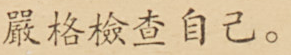嚴格檢查自己。
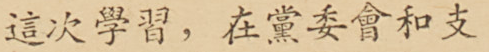這次學習，在黨委會和支
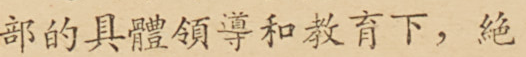部的具體領導和教育下，絕
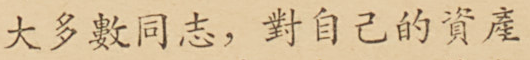大多數同志，對自己的資產
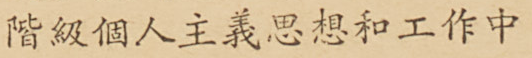階級個人主義思想和工作中
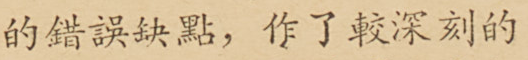的錯誤缺點，作了較深刻的
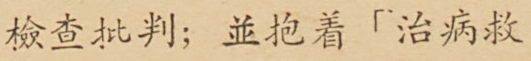檢查批判；並抱着「治病救
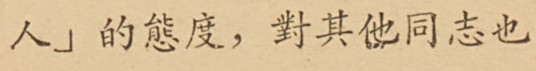人」的態度，對其他同志也
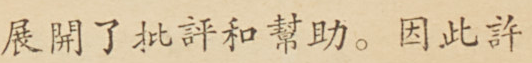展開了批評和幫助。因此許
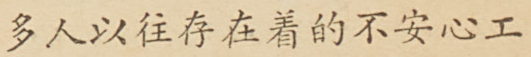多人以往存在着的不安心工
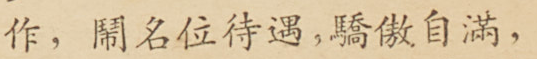作，鬧名位待遇，驕傲自滿，
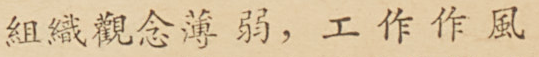組織觀念薄弱，工作作風
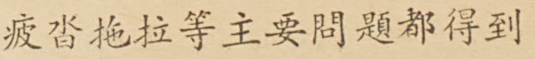疲沓拖拉等主要問題都得到
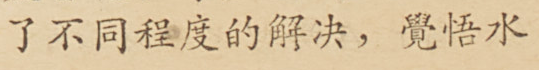了不同程度的解決，覺悟水
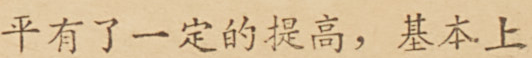平有了一定的提高，基本上
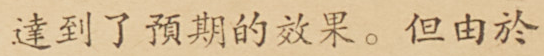達到了預期的效果。但由於
